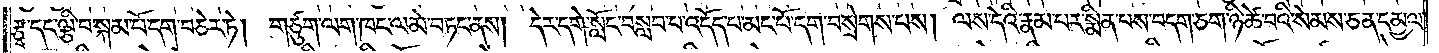རྩྭ་དང་ལྕི་བ་སྐམ་པོ་དག་བཅེར་ཏེ། གཙུག་ལག་ཁང་ལ་མེ་བཏང་ནས། དེར་དགེ་སློང་བསླབ་པ་འདོད་པ་མང་པོ་དག་བསྲེགས་པས། ལས་དེའི་རྣམ་པར་སྨིན་པས་བདག་ཅག་ཉི་ཚེ་བའི་སེམས་ཅན་དམྱལ་
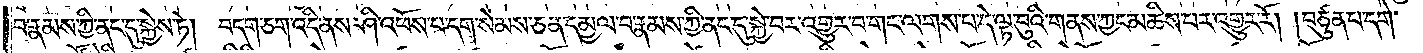བ་རྣམས་ཀྱི་ནང་དུ་སྐྱེས་ཏེ། བདག་ཅག་འདི་ནས་ཤི་འཕོས་པ་དག་སེམས་ཅན་དམྱལ་བ་རྣམས་ཀྱི་ནང་དུ་སྐྱེ་བར་འགྱུར་བ་གང་ལགས་པ་དེ་ལྟ་བུའི་གནས་ཀྱང་མཆིས་པར་འགྱུར་རོ། །བཙུན་པ་དགེ་
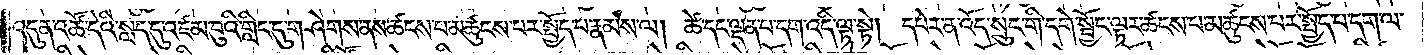འདུན་འཚོ་དེའི་སླད་དུ་འཛམ་བུའི་གླིང་དུ་གཤེགས་ནས་ཚངས་པ་མཚུངས་པར་སྤྱོད་པ་རྣམས་ལ། ཚེ་དང་ལྡན་པ་དག་འདི་ལྟ་སྟེ། དཔེར་ན་འོད་སྲུང་གི་དགེ་སྦྱོང་ལྟར་ཚངས་པ་མཚུངས་པར་སྤྱོད་པ་དག་ལ་
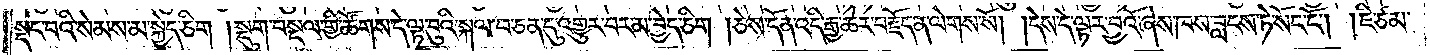སྡང་བའི་སེམས་མ་སྐྱེད་ཅིག །སྡུག་བསྔལ་གྱི་ཚོགས་དེ་ལྟ་བུའི་སྐལ་བ་ཅན་དུ་འགྱུར་བར་མ་བྱེད་ཅིག །ཅེས་དོན་འདི་རྒྱ་ཆེར་བརྗོད་ན་ལེགས་སོ། །དེས་དེ་ལྟར་བྱའོ་ཞེས་ཁས་བླངས་ཏེ་སོང་ངོ༌། །ཇི་ཙམ་
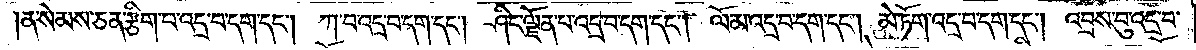ན་སེམས་ཅན་རྩིག་པ་འདྲ་བ་དག་དང༌། ཀ་བ་འདྲ་བ་དག་དང༌། ཤིང་ལྗོན་པ་འདྲ་བ་དག་དང༌། ལོ་མ་འདྲ་བ་དག་དང༌། མེ་ཏོག་འདྲ་བ་དག་དང༌། འབྲས་བུ་འདྲ་བ་
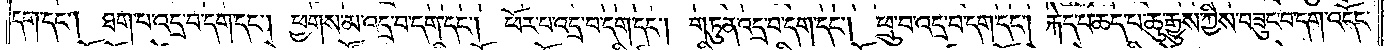དག་དང༌། ཐག་པ་འདྲ་བ་དག་དང༌། ཕྱགས་མ་འདྲ་བ་དག་དང༌། ཕོར་པ་འདྲ་བ་དག་དང༌། གཏུན་འདྲ་བ་དག་དང༌། ཕྲུ་བ་འདྲ་བ་དག་དང༌། རྐེད་པ་ཆད་པ་ཆུ་རྒྱུས་ཀྱིས་བཟུང་བ་དག་འདོང་
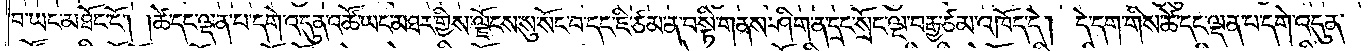བ་ཡང་མཐོང་ངོ༌། །ཚེ་དང་ལྡན་པ་དགེ་འདུན་འཚོ་ཡང་མཐར་གྱིས་ལྗོངས་སུ་སོང་བ་དང་ཇི་ཙམ་ན་བསྟི་གནས་ཤིག་ན་དྲང་སྲོང་ལྔ་བརྒྱ་ཙམ་འཁོད་དེ། དེ་དག་གིས་ཚེ་དང་ལྡན་པ་དགེ་འདུན་
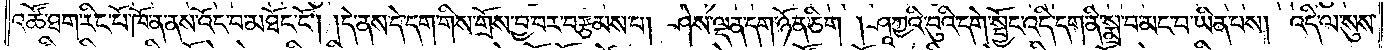འཚོ་ཐག་རིང་པོ་ཁོ་ན་ནས་འོང་བ་མཐོང་ངོ༌། །དེ་ནས་དེ་དག་གིས་གྲོས་བྱ་བར་བརྩམས་པ། ཤེས་ལྡན་དག་ཉོན་ཅིག །ཤཱཀྱའི་བུའི་དགེ་སྦྱོང་འདི་དག་ནི་སྨྲ་བ་མང་བ་ཡིན་པས། འདི་ལ་སུས་
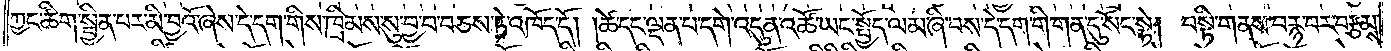ཀྱང་ཚིག་སྦྱིན་པར་མི་བྱའོ་ཞེས་དེ་དག་གིས་ཁྲིམས་སུ་བྱ་བ་བཅས་ཏེ་འཁོད་དོ། །ཚེ་དང་ལྡན་པ་དགེ་འདུན་འཚོ་ཡང་སྤྱོད་ལམ་ཞི་བས་དེ་དག་གི་གན་དུ་སོང་སྟེ། བསྟི་གནས་བརྙ་བར་བརྩམས་
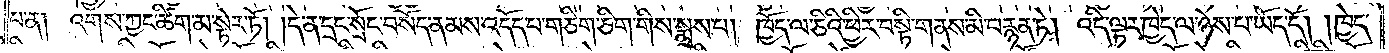པ་ན། འགས་ཀྱང་ཚིག་མ་སྟེར་ཏོ། །དེ་ན་དྲང་སྲོང་བསོད་ནམས་འདོད་པ་གཅིག་ཅིག་གིས་སྨྲས་པ། ཁྱོད་ལ་ཅིའི་ཕྱིར་བསྟི་གནས་མི་བརྙན་ཏེ། འདི་ལྟར་ཁྱེད་ལ་ཉེས་པ་ཡོད་དོ། །ཁྱེད་
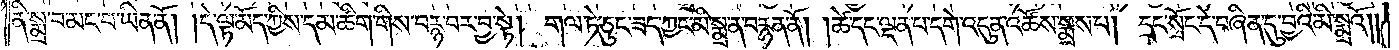ནི་སྨྲ་བ་མང་བ་ཡིན་ནོ། །དེ་ལྟ་མོད་ཀྱིས་དམ་ཚིག་གིས་བརྙ་བར་བྱ་སྟེ། གལ་ཏེ་ཅུང་ཟད་ཀྱང་མི་སྨྲ་ན་བརྙན་ནོ། །ཚེ་དང་ལྡན་པ་དགེ་འདུན་འཚོས་སྨྲས་པ། དྲང་སྲོང་དེ་བཞིན་དུ་བྱའི་མི་སྨྲའོ༎
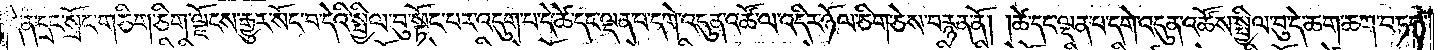དེ་ན་དྲང་སྲོང་གཅིག་ཅིག་ལྗོངས་རྒྱུར་སོང་བ་དེའི་སྤྱིལ་བུ་སྟོང་པར་འདུག་པ་དེ་ཚེ་དང་ལྡན་པ་དགེ་འདུན་འཚོ་ལ་འདིར་ཉོལ་ཅིག་ཅེས་བརྙན་ནོ། །ཚེ་དང་ལྡན་པ་དགེ་འདུན་འཚོས་སྤྱིལ་བུ་དེ་ཆག་ཆག་བཏང་
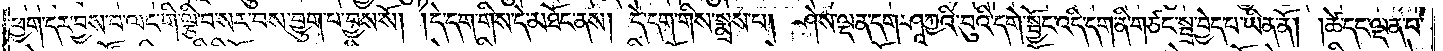ཕྱག་དར་བྱས་བ་ལང་གི་ལྕི་བ་སར་བས་བྱུག་པ་བྱས་སོ། །དེ་དག་གིས་དེ་མཐོང་ནས། དེ་དག་གིས་སྨྲས་པ། ཤེས་ལྡན་དག་ཤཱཀྱའི་བུའི་དགེ་སྦྱོང་འདི་དག་ནི་གཙང་སྦྲ་བྱེད་པ་ཡིན་ནོ། །ཚེ་དང་ལྡན་པ་
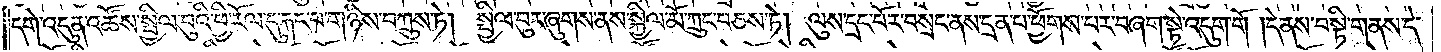དགེ་འདུན་འཚོས་སྤྱིལ་བུའི་ཕྱི་རོལ་དུ་རྐང་པ་གཉིས་བཀྲུས་ཏེ། སྤྱིལ་བུར་ཞུགས་ནས་སྐྱིལ་མོ་ཀྲུང་བཅས་ཏེ། ལུས་དྲང་པོར་བསྲང་ནས་དྲན་པ་ཕྱོགས་པར་བཞག་སྟེ་འདུག་གོ །དེ་ནས་བསྟི་གནས་དེ་
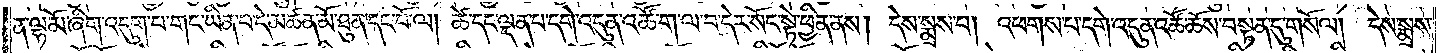ན་ལྷ་མོ་ཞིག་འདུག་པ་གང་ཡིན་པ་དེ་མཚན་མོ་ཐུན་དང་པོ་ལ། ཚེ་དང་ལྡན་པ་དགེ་འདུན་འཚོ་ག་ལ་བ་དེར་སོང་སྟེ་ཕྱིན་ནས། དེས་སྨྲས་པ། འཕགས་པ་དགེ་འདུན་འཚོ་ཆོས་བསྟན་དུ་གསོལ། དེས་སྨྲས་
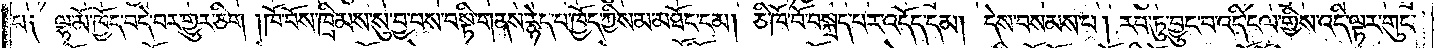པ༑ ལྷ་མོ་ཁྱོད་བདེ་བར་གྱུར་ཅིག །ཁོ་བོས་ཁྲིམས་སུ་བྱ་བས་བསྟི་གནས་རྙེད་པ་ཁྱོད་ཀྱིས་མ་མཐོང་ངམ། ཅི་ཁོ་བོ་བསྐྲད་པར་འདོད་དམ། དེས་བསམས་པ། རབ་ཏུ་བྱུང་བ་འདི་ངལ་གྱིས་འདི་ལྟར་གུང་
